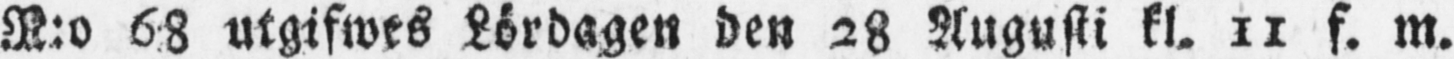N:o 68 utgifwes Lördagen den 28 Augusti kl. 11 f. m.
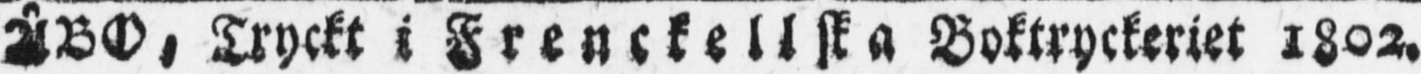ÅBO, Tryckt i Frenckellska Boktryckeriet 1802.
